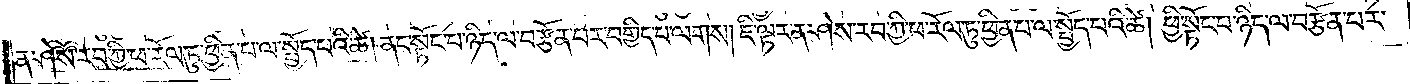ན་ཤེས་རབ་ཀྱི་ཕ་རོལ་ཏུ་ཕྱིན་པ་ལ་སྤྱོད་པའི་ཚེ། ནང་སྟོང་པ་ཉིད་ལ་བརྩོན་པར་བགྱིད་པ་ལགས། ཇི་ལྟར་ན་ཤེས་རབ་ཀྱི་ཕ་རོལ་ཏུ་ཕྱིན་པ་ལ་སྤྱོད་པའི་ཚེ། ཕྱི་སྟོང་པ་ཉིད་ལ་བརྩོན་པར་
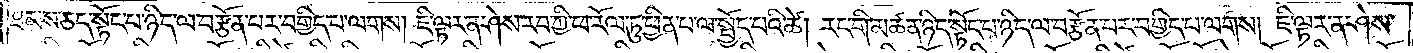ཐམས་ཅད་སྟོང་པ་ཉིད་ལ་བརྩོན་པར་བགྱིད་པ་ལགས། ཇི་ལྟར་ན་ཤེས་རབ་ཀྱི་ཕ་རོལ་ཏུ་ཕྱིན་པ་ལ་སྤྱོད་པའི་ཚེ། རང་གི་མཚན་ཉིད་སྟོང་པ་ཉིད་ལ་བརྩོན་པར་བགྱིད་པ་ལགས། ཇི་ལྟར་ན་ཤེས་
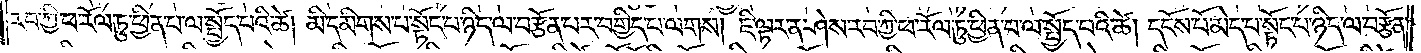རབ་ཀྱི་ཕ་རོལ་ཏུ་ཕྱིན་པ་ལ་སྤྱོད་པའི་ཚེ། མི་དམིགས་པ་སྟོང་པ་ཉིད་ལ་བརྩོན་པར་བགྱིད་པ་ལགས། ཇི་ལྟར་ན་ཤེས་རབ་ཀྱི་ཕ་རོལ་ཏུ་ཕྱིན་པ་ལ་སྤྱོད་པའི་ཚེ། དངོས་པོ་མེད་པ་སྟོང་པ་ཉིད་ལ་བརྩོན་
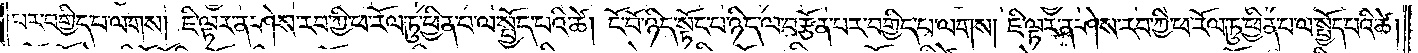པར་བགྱིད་པ་ལགས། ཇི་ལྟར་ན་ཤེས་རབ་ཀྱི་ཕ་རོལ་ཏུ་ཕྱིན་པ་ལ་སྤྱོད་པའི་ཚེ། ངོ་བོ་ཉིད་སྟོང་པ་ཉིད་ལ་བརྩོན་པར་བགྱིད་པ་ལགས། ཇི་ལྟར་ན་ཤེས་རབ་ཀྱི་ཕ་རོལ་ཏུ་ཕྱིན་པ་ལ་སྤྱོད་པའི་ཚེ།
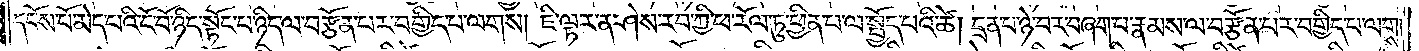དངོས་པོ་མེད་པའི་ངོ་བོ་ཉིད་སྟོང་པ་ཉིད་ལ་བརྩོན་པར་བགྱིད་པ་ལགས། ཇི་ལྟར་ན་ཤེས་རབ་ཀྱི་ཕ་རོལ་ཏུ་ཕྱིན་པ་ལ་སྤྱོད་པའི་ཚེ། དྲན་པ་ཉེ་བར་བཞག་པ་རྣམས་ལ་བརྩོན་པར་བགྱིད་པ་ལགས།
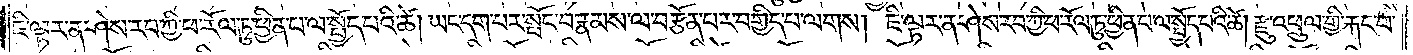ཇི་ལྟར་ན་ཤེས་རབ་ཀྱི་ཕ་རོལ་ཏུ་ཕྱིན་པ་ལ་སྤྱོད་པའི་ཚེ། ཡང་དག་པར་སྤོང་བ་རྣམས་ལ་བརྩོན་པར་བགྱིད་པ་ལགས། ཇི་ལྟར་ན་ཤེས་རབ་ཀྱི་ཕ་རོལ་ཏུ་ཕྱིན་པ་ལ་སྤོང་བའི་ཚེ། རྫུ་འཕྲུལ་གྱི་རྐང་པ་
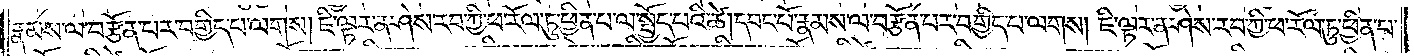རྣམས་ལ་བརྩོན་པར་བགྱིད་པ་ལགས། ཇི་ལྟར་ན་ཤེས་རབ་ཀྱི་ཕ་རོལ་ཏུ་ཕྱིན་པ་ལ་སྤྱོད་པའི་ཚེ། དབང་པོ་རྣམས་ལ་བརྩོན་པར་བགྱིད་པ་ལགས། ཇི་ལྟར་ན་ཤེས་རབ་ཀྱི་ཕ་རོལ་ཏུ་ཕྱིན་པ་
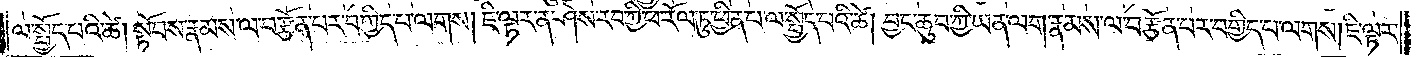ལ་སྤྱོད་པའི་ཚེ། སྟོབས་རྣམས་ལ་བརྩོན་པར་བགྱིད་པ་ལེགས། ཇི་ལྟར་ན་ཤེས་རབ་ཀྱི་ཕ་རོལ་ཏུ་ཕྱིན་པ་ལ་སྤྱོད་པའི་ཚེ། བྱང་ཆུབ་ཀྱི་ཡན་ལག་རྣམས་ལ་བརྩོན་པར་བགྱིད་པ་ལགས། ཇི་ལྟར་
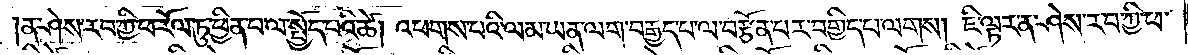ན་ཤེས་རབ་ཀྱི་ཕ་རོལ་ཏུ་ཕྱིན་པ་ལ་སྤྱོད་པའི་ཚེ། འཕགས་པའི་ལམ་ཡན་ལག་བརྒྱད་པ་ལ་བརྩོན་པར་བགྱིད་པ་ལགས། ཇི་ལྟར་ན་ཤེས་རབ་ཀྱི་ཕ་
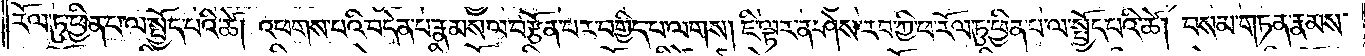རོལ་ཏུ་ཕྱིན་པ་ལ་སྤྱོད་པའི་ཚེ། འཕགས་པའི་བདེན་པ་རྣམས་ལ་བརྩོན་པར་བགྱིད་པ་ལགས། ཇི་ལྟར་ན་ཤེས་རབ་ཀྱི་ཕ་རོལ་ཏུ་ཕྱིན་པ་ལ་སྤྱོད་པའི་ཚེ། བསམ་གཏན་རྣམས་
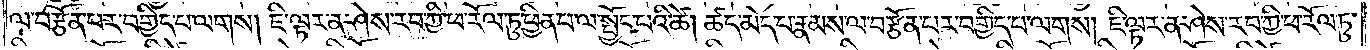ལ་བརྩོན་པར་བགྱིད་པ་ལགས། ཇི་ལྟར་ན་ཤེས་རབ་ཀྱི་ཕ་རོལ་ཏུ་ཕྱིན་པ་ལ་སྤྱོད་པའི་ཚེ། ཚད་མེད་པ་རྣམས་ལ་བརྩོན་པར་བགྱིད་པ་ལགས། ཇི་ལྟར་ན་ཤེས་རབ་ཀྱི་ཕ་རོལ་ཏུ་
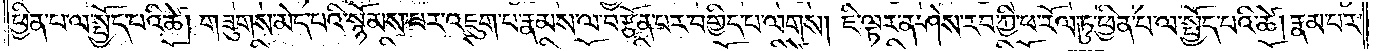ཕྱིན་པ་ལ་སྤྱོད་པའི་ཚེ། གཟུགས་མེད་པའི་སྙོམས་པར་འཇུག་པ་རྣམས་ལ་བརྩོན་པར་བགྱིད་པ་ལགས། ཇི་ལྟར་ན་ཤེས་རབ་ཀྱི་ཕ་རོལ་ཏུ་ཕྱིན་པ་ལ་སྤྱོད་པའི་ཚེ། རྣམ་པར་
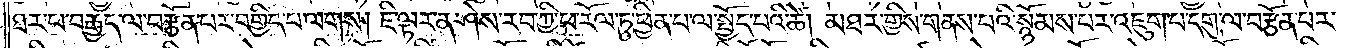ཐར་པ་བརྒྱད་ལ་བརྩོན་པར་བགྱིད་པ་ལགས། ཇི་ལྟར་ན་ཤེས་རབ་ཀྱི་ཕ་རོལ་ཏུ་ཕྱིན་པ་ལ་སྤྱོད་པའི་ཚེ། མཐར་གྱིས་གནས་པའི་སྙོམས་པར་འཇུག་པ་དགུ་ལ་བརྩོན་པར་
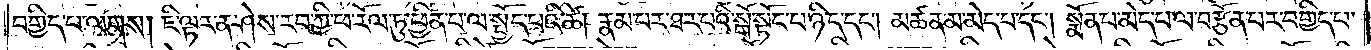བགྱིད་པ་ལགས། ཇི་ལྟར་ན་ཤེས་རབ་ཀྱི་ཕ་རོལ་ཏུ་ཕྱིན་པ་ལ་སྤྱོད་པའི་ཚེ། རྣམ་པར་ཐར་པའི་སྒོ་སྟོང་པ་ཉིད་དང༌། མཚན་མ་མེད་པ་དང༌། སྨོན་པ་མེད་པ་ལ་བརྩོན་པར་བགྱིད་པ་
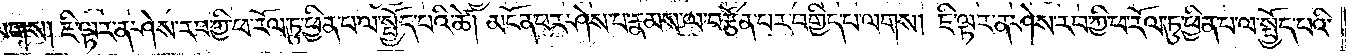ལགས། ཇི་ལྟར་ན་ཤེས་རབ་ཀྱི་ཕ་རོལ་ཏུ་ཕྱིན་པ་ལ་སྤྱོད་པའི་ཚེ། མངོན་པར་ཤེས་པ་རྣམས་ལ་བརྩོན་པར་བགྱིད་པ་ལགས། ཇི་ལྟར་ན་ཤེས་རབ་ཀྱི་ཕ་རོལ་ཏུ་ཕྱིན་པ་ལ་སྤྱོད་པའི་
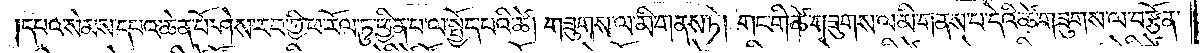དཔའ་སེམས་དཔའ་ཆེན་པོ་ཤེས་རབ་ཀྱི་ཕ་རོལ་ཏུ་ཕྱིན་པ་ལ་སྤྱོད་པའི་ཚེ། གཟུགས་ལ་མི་གནས་ཏེ། གང་གི་ཚེ་གཟུགས་ལ་མི་གནས་པ་དེའི་ཚེ་གཟུགས་ལ་བརྩོན་
